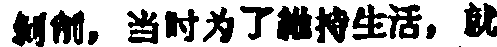剝削，当时为了維持生活，就
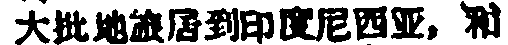大批地旅居到印度尼西亚，和
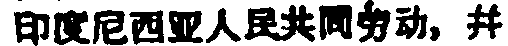印度尼西亚人民共同劳动，并
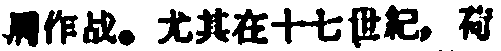肩作战。尤其在十七世紀，荷
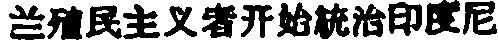兰殖民主义者开始統治印度尼
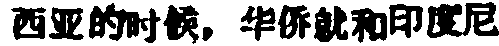西亚的时候，华侨就和印度尼
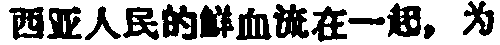西亚人民的鲜血流在一起，为
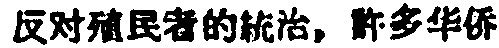反对殖民者的統治，許多华侨
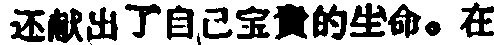还献出了自己宝貴的生命。在
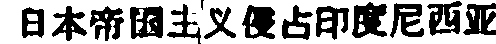日本帝國主义侵占印度尼西亚
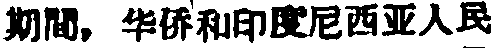期間，华侨和印度尼西亚人民
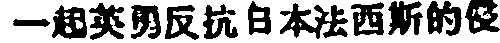一起英明反抗自本法西新的侵
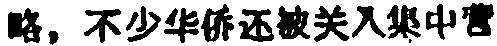略，不少华侨还被关入集中营
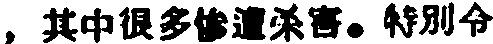，其中很多惨遭杀害。特別令
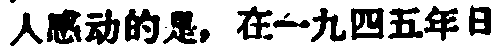人感动的是，在一九四五年日
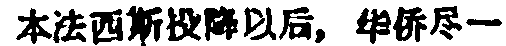本法西斯投降以后，华侨尽一
